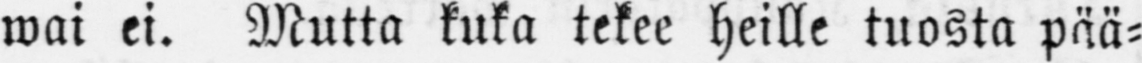wai ei. Mutta kuka tekee heille tuosta pää-
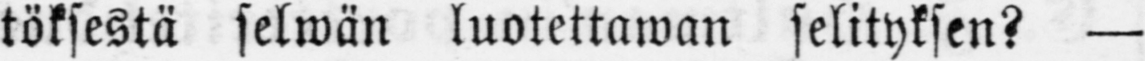töksestä selwän luotettawan selityksen? —
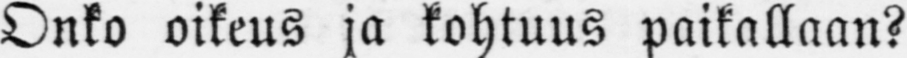Onko oikeus ja kohtuus paikallaan?
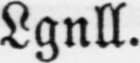Lgnll.
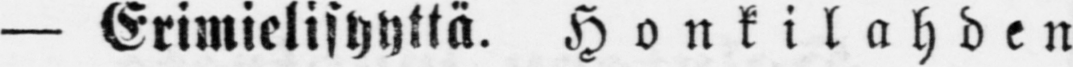— Erimielisyyttä. Honkilahden
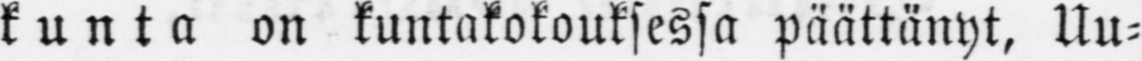kunta on kuntakokouksessa päättänyt, Uu-
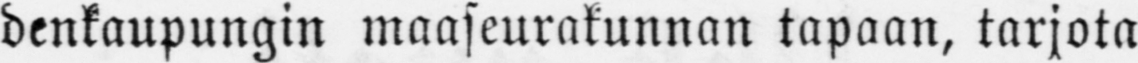denkaupungin maaseurakunnan tapaan, tarjota
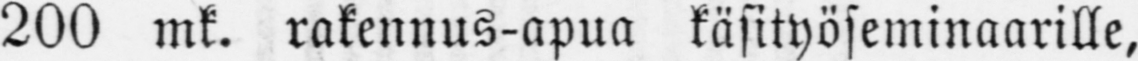200 mk. rakennus-apua käsityöseminaarille,
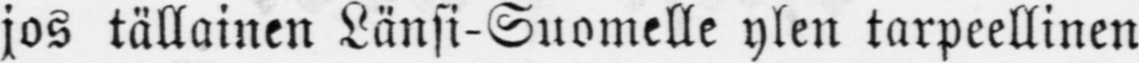jos tällainen Länsi-Suomelle ylen tarpeellinen
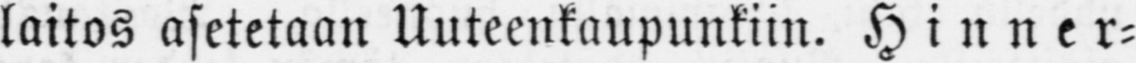laitos asetetaan Uuteenkaupunkiin. Hinner-
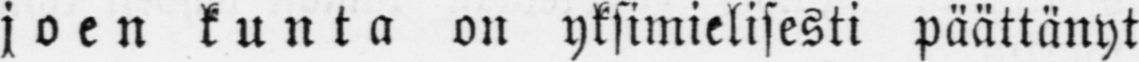j oen kunta on yksimielisesti päättänyt
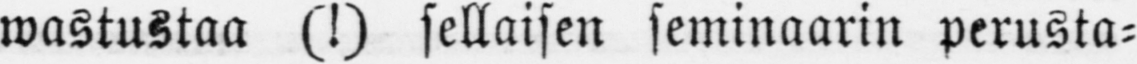wastustaa (!) sellaisen seminaarin perusta-
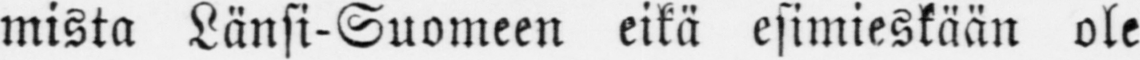mista Länsi-Suomeen eikä esimieskään ole
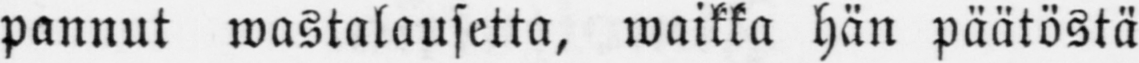pannut wastalausetta, waikka hän päätöstä
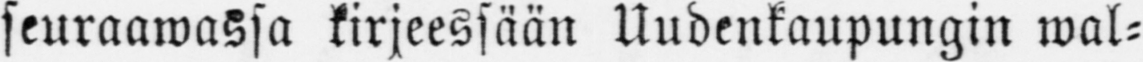seuraawassa kirjeessään Uudenkaupungin wal-
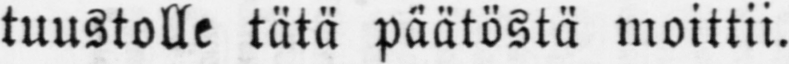tuustolle tätä päätöstä moittii.
